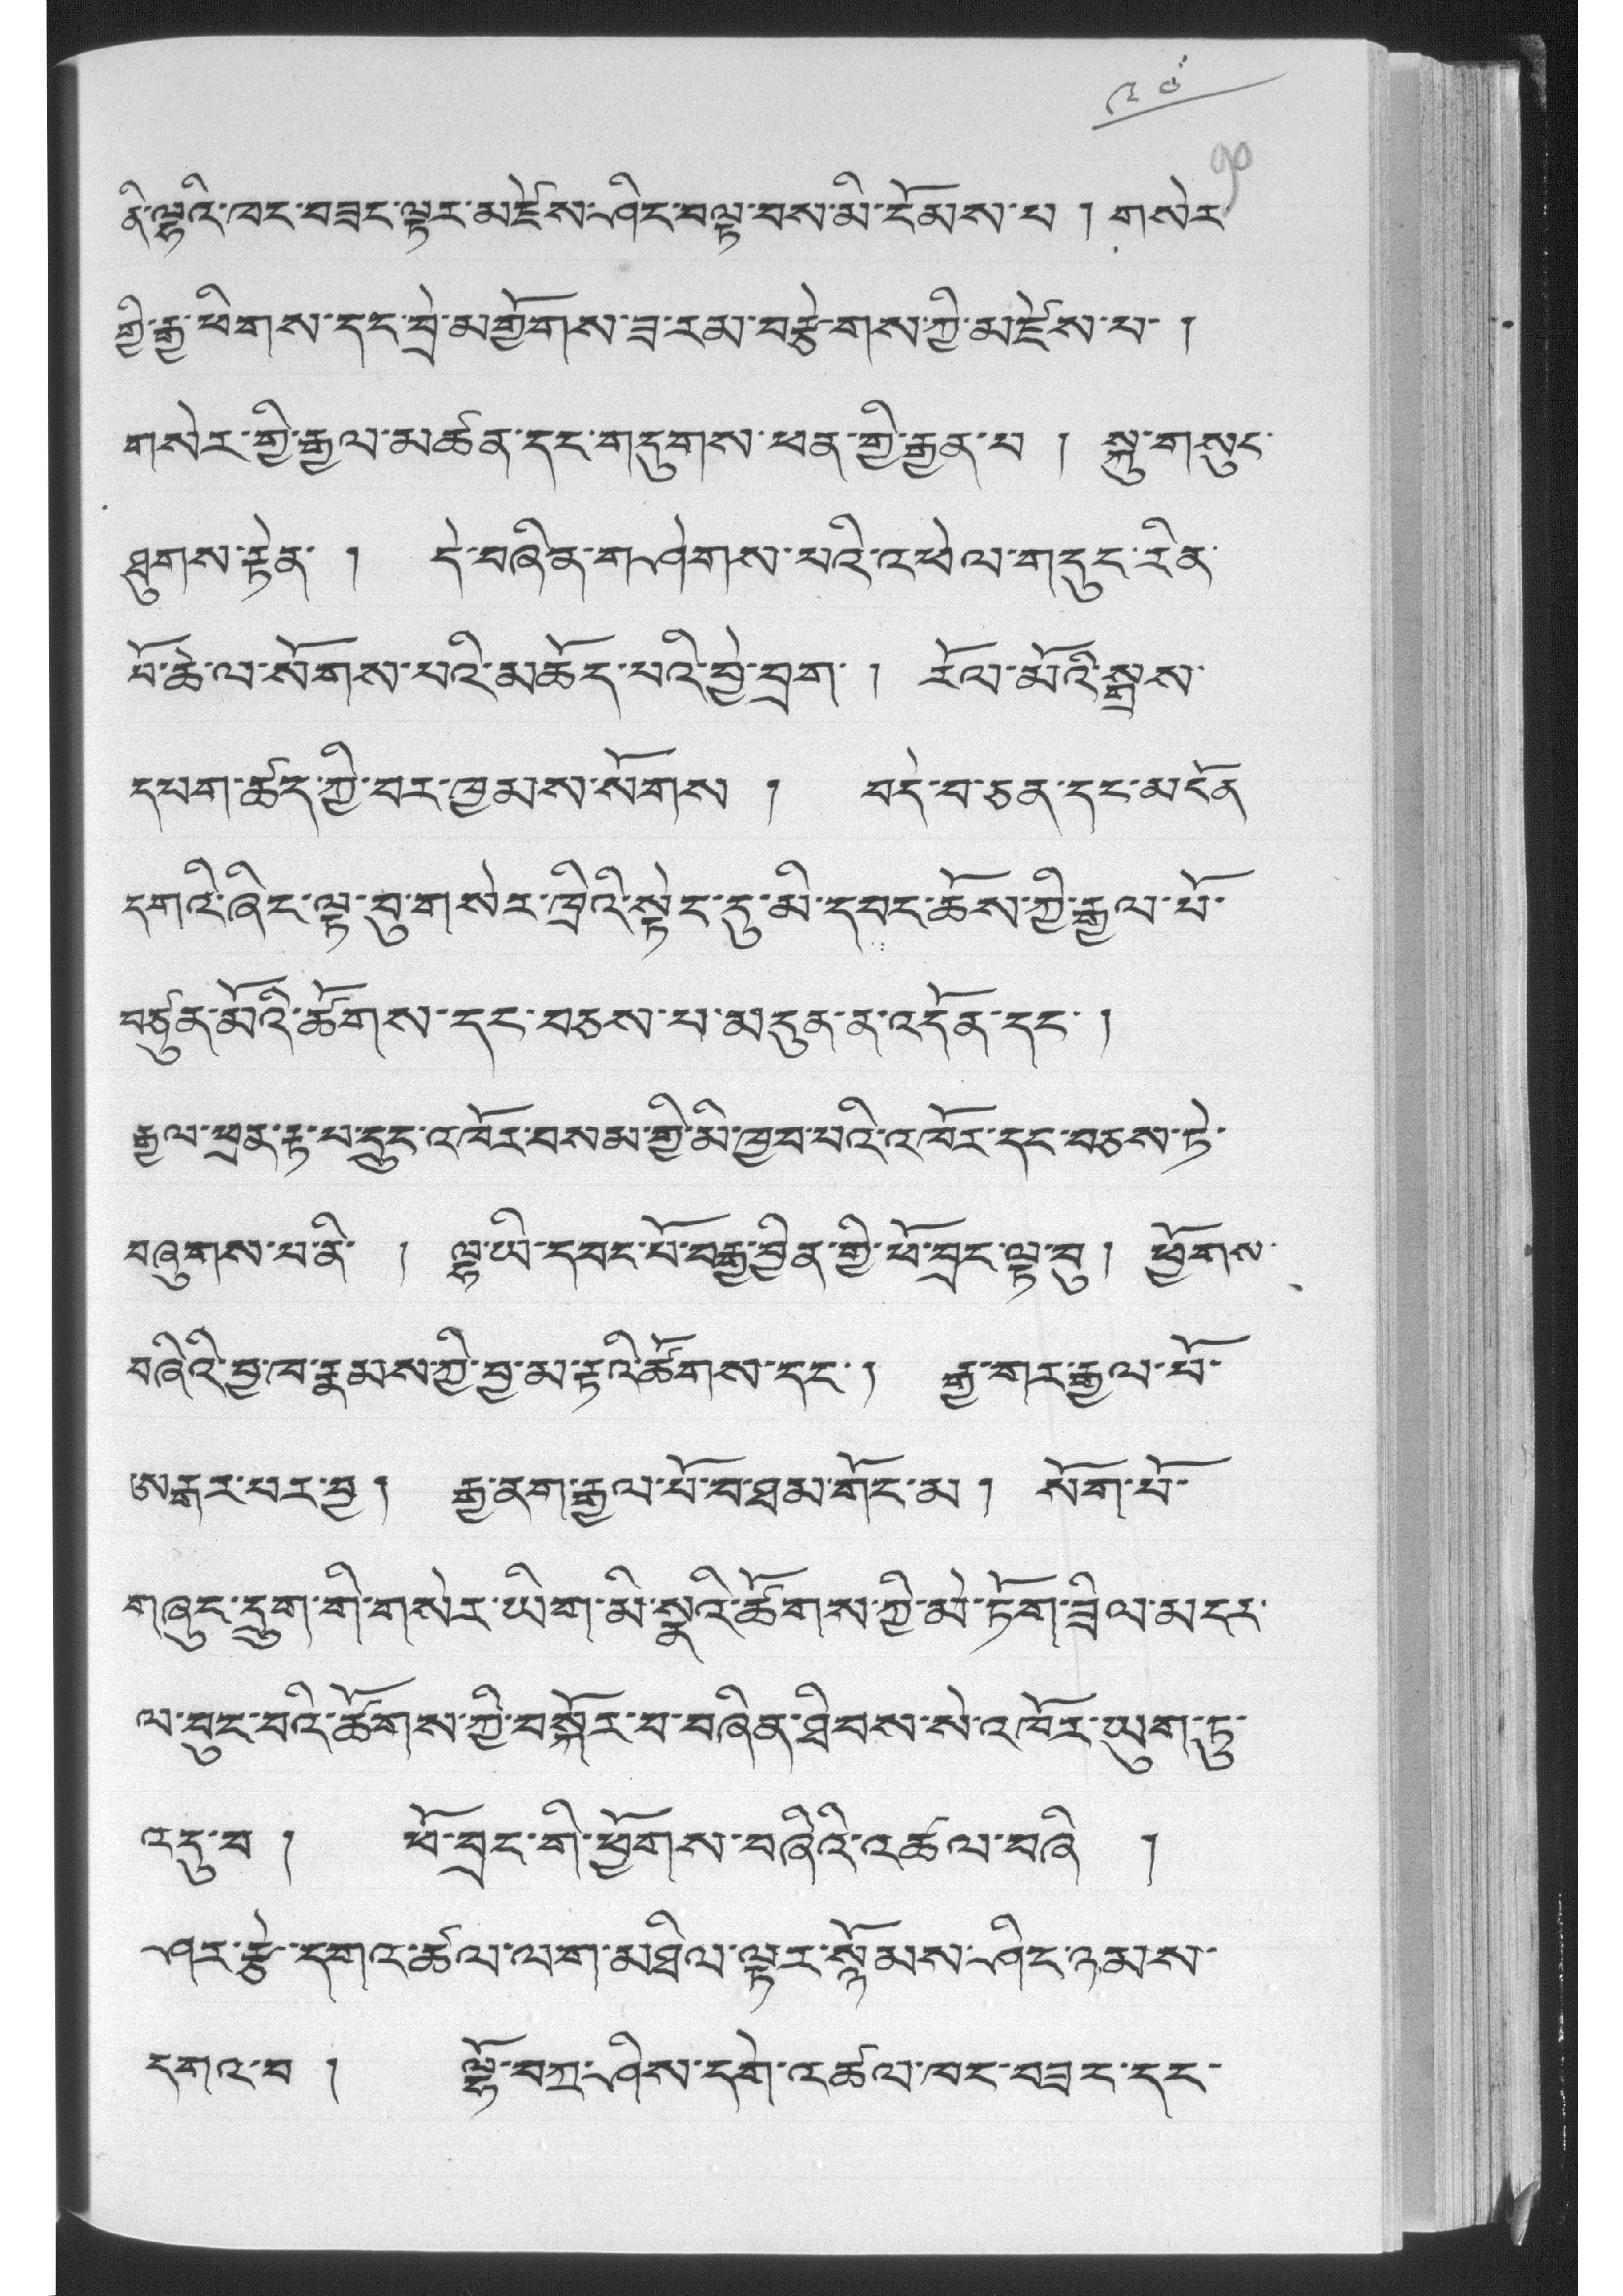༩༠
ནི་ལྷའི་ཁང་བཟང་ལྟར་མཛེས་ཤིང་བལྟ་བས་མི་ངོམས་པ ། གསེར་
གྱི་རྒྱ་ཕིགས་དང་བྲེ་མགྱོགས་ཟ་རམ་བརྩེགས་ཀྱི་མཛེས་པ་ །
གསེར་གྱི་རྒྱལ་མཚན་དང་གདུགས་ཕན་གྱི་རྒྱན་པ ། སྐུ་གསུང་
ཐུགས་རྟེན་ ། དེ་བཞིན་གཤེགས་པའི་འཕེལ་གདུང་རིན་
བོ་ཆེ་ལ་སོགས་པའི་མཆོད་པའི་བྱེ་བྲག་ ། རོལ་མོའི་སྒྲས་
དཔག་ཚད་ཀྱི་བར་ཁྱམས་སོགས ། བདེ་བ་ཅན་དང་མངོན་
དགའི་ཞིང་ལྟ་བུ་གསེར་ཁྲིའི་སྟེང་དུ་མི་དབང་ཆོས་ཀྱི་རྒྱལ་པོ་
བཙུན་མོའི་ཚོགས་དང་བཅས་པ་མདུན་ན་འདོན་དང་ །
རྒྱལ་ཕྲན་རྟ་བ་དྲུང་འཁོར་བསམ་གྱི་མི་ཁྱབ་པའི་འཁོར་དང་བཅས་ཏེ་
བཞུགས་པ་ནི་ ། ལྷ་ཡི་དབང་པོ་བརྒྱ་བྱིན་གྱི་ཕོ་བྲང་ལྟ་བུ ། ཕྱོགས་
བཞིའི་བྱ་ཁ་རྣམས་ཀྱི་བྱ་མ་རྟའི་ཚོགས་དང་། རྒྱ་གར་རྒྱལ་པོ་
ཨརྒར་པར་བྱ། རྒྱ་ནག་རྒྱལ་པོ་བ་ཐམ་གོང་མ། སོག་པོ་
གཞུང་དྲུག་གི་གསེར་ཡིག་མི་སྣའི་ཚོགས་ཀྱི་མེ་ཏོག་ཟིལ་མངར་
ལ་བུང་བའི་ཚོགས་ཀྱི་བསྐོར་པ་བཞིན་ཐིབས་སེ་འཁོར་ཡུག་ཏུ་
འདུ་བ ། ཕོ་བྲང་གི་ཕྱོགས་བཞིའི་འཚལ་བཞི །
ཤར་རྩེ་དགའ་ཚལ་ལག་མཐིལ་ལྟར་སྙོམས་ཤིང་ཉམས་
དགའ་བ ། ལྷོ་བཀྲ་ཤིས་དགེ་འཚལ་ཁང་བཟང་དང་
